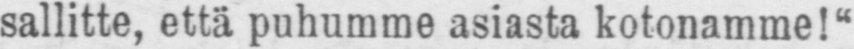sallitte, että pukumme asiasta kotonamme!"
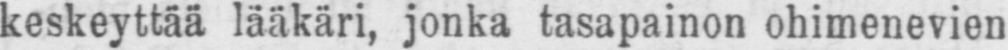keskeyttää lääkäri, jonka tasapainon ohimenevien
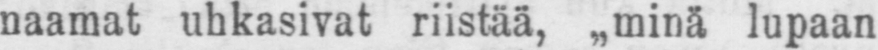naamat uhkasivat riistää, „minä lupaan
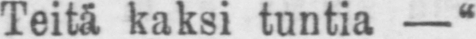Teitä kaksi tuntia —"
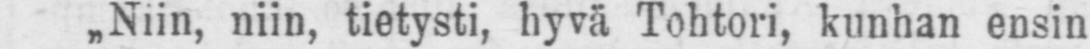˶Niin, niin, tietysti, hyvä Tohtori, kunhan ensin
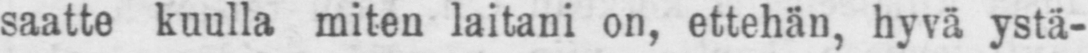saatte kuulla miten laitani on, ettehän, hyvä ystä-
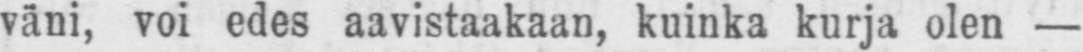väni, voi edes aavistaakaan, kuinka kurja olen —
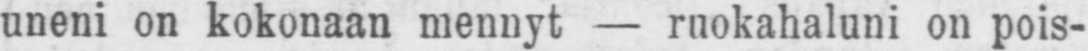uneni on kokonaan mennet — ruokakaluni on pois-
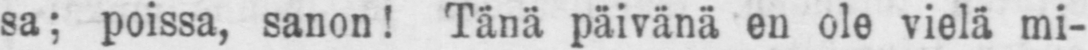sa; poissa, sanon! Tänä päivänä en ole vielä mi-
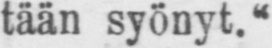tään syönyt."
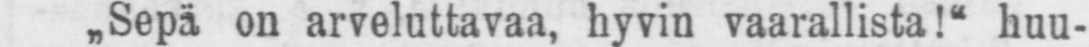˶Sepä on arveluttavaa, vaarallista!" huu-
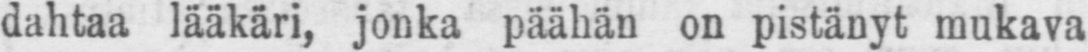dahtaa lääkäri, jonka päähän on pistänyt mukava
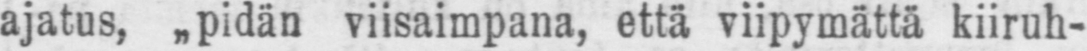ajatus, ˶pidän viisaimpana, että viipymättä kiiruh-
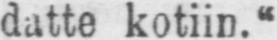datte kotiin."
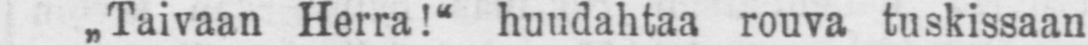˶Taivaan Herra!" huudahtaa rouva tuskissaan
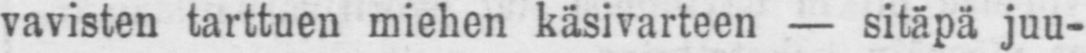vavisten tarttuen miehen käsivarteen — sitäpä juu-
